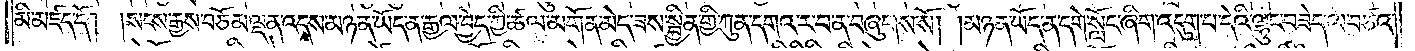མི་མཛད་དོ། །སངས་རྒྱས་བཅོམ་ལྡན་འདས་མཉན་ཡོད་ན་རྒྱལ་བྱེད་ཀྱི་ཚལ་མགོན་མེད་ཟས་སྦྱིན་གྱི་ཀུན་དགའ་ར་བ་ན་བཞུགས་སོ། །མཉན་ཡོད་ན་དགེ་སློང་ཞིག་འདུག་པ་དེའི་ལྷུང་བཟེད་ལ་བཙའ་
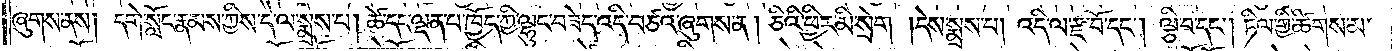ཞུགས་ནས། དགེ་སློང་རྣམས་ཀྱིས་དེ་ལ་སྨྲས་པ། ཚེ་དང་ལྡན་པ་ཁྱོད་ཀྱི་ལྷུང་བཟེད་འདི་བཙའ་ཞུགས་ན། ཅིའི་ཕྱིར་མི་སྲེག །དེས་སྨྲས་པ། འདི་ལ་རྫ་བོ་དང༌། ལྕི་བ་དང༌། ཏིལ་གྱི་ཚིགས་མ་
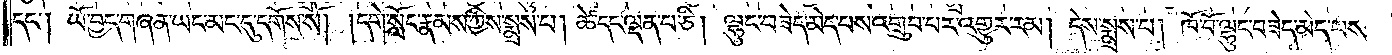དང༌། ཡོ་བྱད་གཞན་ཡང་མང་དུ་དགོས་སོ། །དགེ་སློང་རྣམས་ཀྱིས་སྨྲས་པ། ཚེ་དང་ལྡན་པ་ཅི། ལྷུང་བཟེད་མེད་པས་འགྲུབ་པར་འགྱུར་རམ། དེས་སྨྲས་པ། ཁོ་བོ་ལྷུང་བཟེད་མེད་པས་
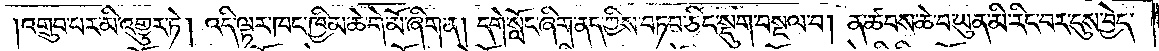འགྲུབ་པར་མི་འགྱུར་ཏེ། འདི་ལྟར་ཁང་ཁྱིམ་ཆེ་གེ་མོ་ཞིག་ན། དགེ་སློང་ཞིག་ནད་ཀྱིས་བཏབ་ཅིང་སྡུག་བསྔལ་བ། ན་ཚབས་ཆེ་བ་ཡུན་མི་རིང་བར་དུས་བྱེད་
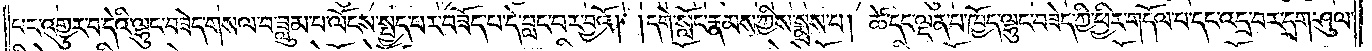པར་འགྱུར་བ་དེའི་ལྷུང་བཟེད་གསལ་བ་ཟླུམ་པ་ལོངས་སྤྱད་པར་བཟོད་པ་དེ་བླང་བར་བྱའོ། །དགེ་སློང་རྣམས་ཀྱིས་སྨྲས་པ། ཚེ་དང་ལྡན་པ་ཁྱོད་ལྷུང་བཟེད་ཀྱི་ཕྱིར་གདོལ་བ་དང་འདྲ་བར་དྲག་ཤུལ་
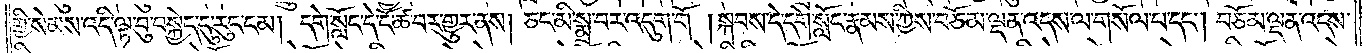གྱི་སེམས་འདི་ལྟ་བུ་བསྐྱེད་དུ་རུང་ངམ། དགེ་སློང་དེ་ངོ་ཚ་བར་གྱུར་ནས། ཅང་མི་སྨྲ་བར་འདུག་གོ །སྐབས་དེ་དགེ་སློང་རྣམས་ཀྱིས་བཅོམ་ལྡན་འདས་ལ་གསོལ་པ་དང༌། བཅོམ་ལྡན་འདས་
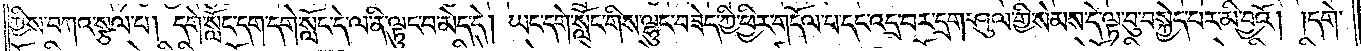ཀྱིས་བཀའ་སྩལ་པ། དགེ་སློང་དག་དགེ་སློང་དེ་ལ་ནི་ལྟུང་བ་མེད་དེ། ཡང་དགེ་སློང་གིས་ལྷུང་བཟེད་ཀྱི་ཕྱིར་གདོལ་བ་དང་འདྲ་བར་དྲག་ཤུལ་གྱི་སེམས་དེ་ལྟ་བུ་བསྐྱེད་པར་མི་བྱའོ། །དགེ་
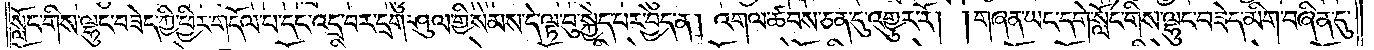སློང་གིས་ལྷུང་བཟེད་ཀྱི་ཕྱིར་གདོལ་པ་དང་འདྲ་བར་དྲག་ཤུལ་གྱི་སེམས་དེ་ལྟ་བུ་སྐྱེད་པར་བྱེད་ན། འགལ་ཚབས་ཅན་དུ་འགྱུར་རོ། །གཞན་ཡང་དགེ་སློང་གིས་ལྷུང་བཟེད་མིག་བཞིན་དུ་
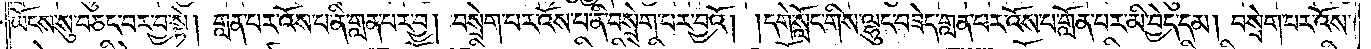ཡོངས་སུ་བཅང་བར་བྱ་སྟེ། གླན་པར་འོས་པ་ནི་གླན་པར་བྱ། བསྲེག་པར་འོས་པ་ནི་བསྲེག་པར་བྱའོ། །དགེ་སློང་གིས་ལྷུང་བཟེད་གླན་པར་འོས་པ་གློན་པར་མི་བྱེད་དམ། བསྲེག་པར་འོས་
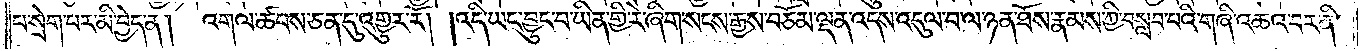པ་སྲེག་པར་མི་བྱེད་ན། འགལ་ཚབས་ཅན་དུ་འགྱུར་རོ། །འདི་ཡང་བྱུང་བ་ཡིན་གྱི་རེ་ཞིག་སངས་རྒྱས་བཅོམ་ལྡན་འདས་འདུལ་བ་ལ་ཉན་ཐོས་རྣམས་ཀྱི་བསླབ་པའི་གཞི་འཆའ་བར་ནི་
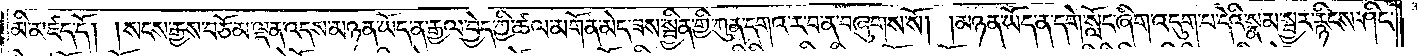མི་མཛད་དོ། །སངས་རྒྱས་བཅོམ་ལྡན་འདས་མཉན་ཡོད་ན་རྒྱལ་བྱེད་ཀྱི་ཚལ་མགོན་མེད་ཟས་སྦྱིན་གྱི་ཀུན་དགའ་ར་བ་ན་བཞུགས་སོ། །མཉན་ཡོད་ན་དགེ་སློང་ཞིག་འདུག་པ་དེའི་སྣམ་སྦྱར་རྙིངས་ཤིང་
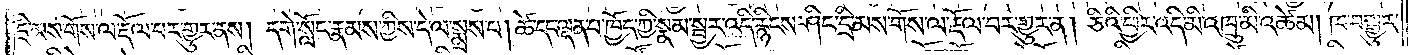དྲི་མས་གོས་ལ་རྡོལ་བར་གྱུར་ནས། དགེ་སློང་རྣམས་ཀྱིས་དེ་ལ་སྨྲས་པ། ཚེ་དང་ལྡན་པ་ཁྱོད་ཀྱི་སྣམ་སྦྱར་འདི་རྙིངས་ཤིང་དྲི་མས་གོས་ལ་རྡོལ་བར་གྱུར་ན། ཅིའི་ཕྱིར་འདི་མི་འཁྲུ་མི་འཚེམ། ཁ་བསྒྱུར་
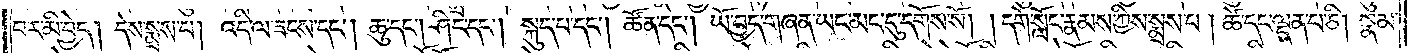བར་མི་བྱེད། དེས་སྨྲས་པ། འདི་ལ་ཟངས་དང༌། ཆུ་དང༌། ཤིང་དང༌། སྐུད་པ་དང༌། ཚོན་དང༌། ཡོ་བྱད་གཞན་ཡང་མང་དུ་དགོས་སོ། །དགེ་སློང་རྣམས་ཀྱིས་སྨྲས་པ། ཚེ་དང་ལྡན་པ་ཅི། སྣམ་
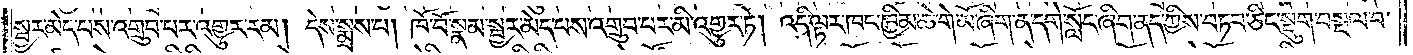སྦྱར་མེད་པས་འགྲུབ་པར་འགྱུར་རམ། དེས་སྨྲས་པ། ཁོ་བོ་སྣམ་སྦྱར་མེད་པས་འགྲུབ་པར་མི་འགྱུར་ཏེ། འདི་ལྟར་ཁང་ཁྱིམ་ཆེ་གེ་མོ་ཞིག་ན་དགེ་སློང་ཞིག་ནད་ཀྱིས་བཏབ་ཅིང་སྡུག་བསྔལ་བ་
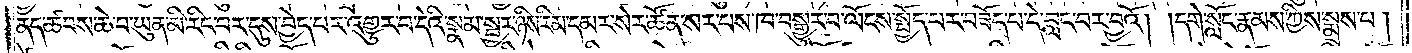ནད་ཚབས་ཆེ་བ་ཡུན་མི་རིང་བར་དུས་བྱེད་པར་འགྱུར་བ་དེའི་སྣམ་སྦྱར་ཉིས་རིམ་དམར་སེར་ཚོན་སར་པས་ཁ་བསྒྱུར་བ་ལོངས་སྤྱོད་པར་བཟོད་པ་དེ་བླང་བར་བྱའོ། །དགེ་སློང་རྣམས་ཀྱིས་སྨྲས་པ།
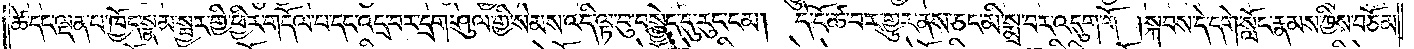ཚེ་དང་ལྡན་པ་ཁྱོད་སྣམ་སྦྱར་གྱི་ཕྱིར་གདོལ་བ་དང་འདྲ་བར་དྲག་ཤུལ་གྱི་སེམས་འདི་ལྟ་བུ་བསྐྱེད་དུ་རུང་ངམ། དེ་ངོ་ཚ་བར་གྱུར་ནས་ཅང་མི་སྨྲ་བར་འདུག་གོ །སྐབས་དེ་དགེ་སློང་རྣམས་ཀྱིས་བཅོམ་
